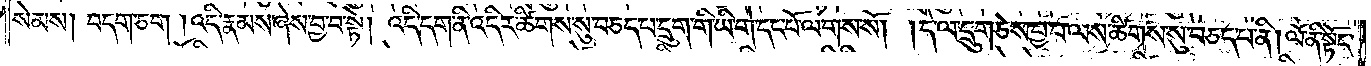སེམས། བདག་ཅག །འདི་རྣམས་ཞེས་བྱ་བ་སྟེ། འདི་དག་ནི་འདིར་ཚིགས་སུ་བཅད་པ་དྲུག་གི་ཡི་གེ་དང་པོ་ལགས་སོ། །དེ་ལ་དྲུག་ཅེས་བྱ་བ་ལས་ཚིགས་སུ་བཅད་པ་ནི། ལོ་ནི་སྟོང་
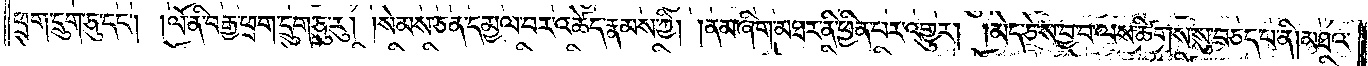ཕྲག་དྲུག་ཅུ་དང༌། །ལོ་ནི་བརྒྱ་ཕྲག་དྲུག་ཅུ་རུ། །སེམས་ཅན་དམྱལ་བར་འཚེད་རྣམས་ཀྱི། །ནམ་ཞིག་མཐར་ནི་ཕྱིན་པར་འགྱུར། །མེད་ཅེས་བྱ་བ་ལས་ཚིགས་སུ་བཅད་པ་ནི། མཐའ་
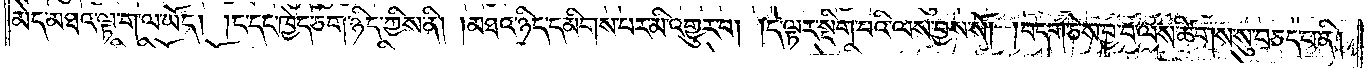མེད་མཐའ་ལྟ་ག་ལ་ཡོད། །ང་དང་ཁྱེད་ཅག་ཉིད་ཀྱིས་ནི། །མཐའ་ཉིད་དམིགས་པར་མི་འགྱུར་བ། །དེ་ལྟར་སྡིག་པའི་ལས་བྱས་སོ། །བདག་ཅེས་བྱ་བ་ལས་ཚིགས་སུ་བཅད་པ་ནི།
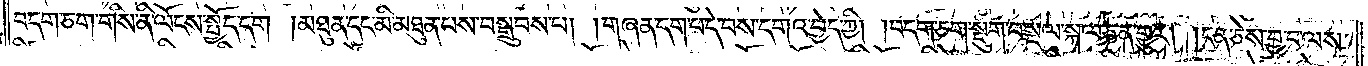བདག་ཅག་གིས་ནི་ལོངས་སྤྱོད་དག །མཐུན་དང་མི་མཐུན་པས་བསྒྲུབས་པ། །གཞན་དག་པ་དེ་བས་དགའ་བྱེད་ཀྱི། །བདག་ཅག་སྡུག་བསྔལ་སྐལ་ཅན་གྱུར། །ངན་ཅེས་བྱ་བ་ལས་
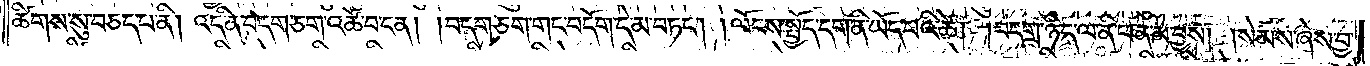ཚིགས་སུ་བཅད་པ་ནི། འདི་ན་བདག་ཅག་འཚོ་བ་ངན། །བདག་ཅག་གང་བདོག་དེ་མ་བཏང༌། །ལོངས་སྤྱོད་དག་ནི་ཡོད་པའི་ཚེ། །བདག་ཉིད་ལ་ནི་ཕན་མ་བྱས། །སེམས་ཞེས་བྱ་
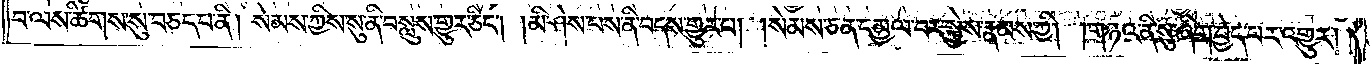བ་ལས་ཚིགས་སུ་བཅད་པ་ནི། སེམས་ཀྱིས་སུ་ནི་བསླུས་གྱུར་ཅིང༌། །མི་ཤེས་པས་ནི་བདས་གྱུར་པ། །སེམས་ཅན་དམྱལ་བར་སྐྱེས་རྣམས་ཀྱི། །གཉའ་ནི་སུ་ཞིག་བྱེད་པར་འགྱུར། །
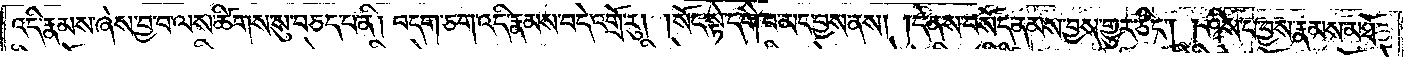འདི་རྣམས་ཞེས་བྱ་བ་ལས་ཚིགས་སུ་བཅད་པ་ནི། བདག་ཅག་འདི་རྣམས་བདེ་འགྲོ་རུ། །སོང་སྟེ་དགེ་བ་མང་བྱས་ནས། །དེ་ནས་བསོད་ནམས་བྱས་གྱུར་ཅིང༌། །ཤིས་པ་བྱས་རྣམས་མཐོ་
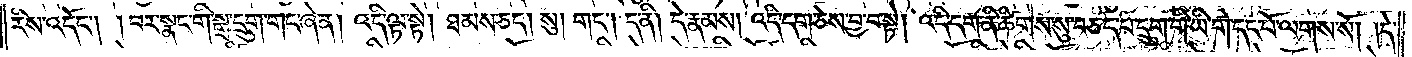རིས་འདོང༌། །བར་སྣང་གི་སྒྲ་དྲུག་གང་ཞེ་ན། འདི་ལྟ་སྟེ། ཐམས་ཅད། སུ། གང༌། ད་ནི། དེ་རྣམས། འདི་དག་ཅེས་བྱ་བ་སྟེ། འདི་དག་ནི་ཚིགས་སུ་བཅད་པ་དྲུག་གི་ཡི་གེ་དང་པོ་ལགས་སོ། །དེ་
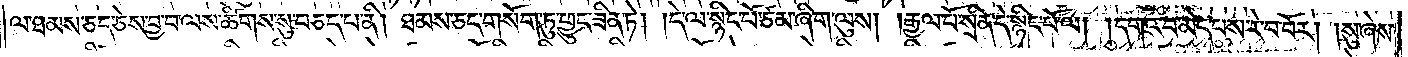ལ་ཐམས་ཅད་ཅེས་བྱ་བ་ལས་ཚིགས་སུ་བཅད་པ་ནི། ཐམས་ཅད་གསོག་ཏུ་ཕྱུང་ཟིན་ཏེ། །དེ་ལ་སྙིང་པོ་ཙམ་ཞིག་ལུས། །རྒྱལ་པོ་སྲིན་དེ་སྙིང་པོ་ལ། །དགའ་བ་མེད་པས་རེ་བ་བོར། །སུ་ཞེས་
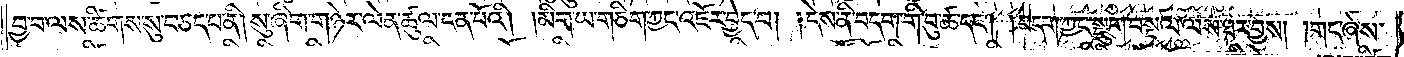བྱ་བ་ལས་ཚིགས་སུ་བཅད་པ་ནི། སུ་ཞིག་གཉེར་ལེན་ཚུལ་ངན་པོའི། །མིག་ཡ་གཅིག་ཀྱང་འཇོར་བྱེད་པ། །དེས་ནི་བདག་གི་བུ་ཚ་དང༌། །བདག་ཀྱང་སྡུག་བསྔལ་ལས་ཐར་བྱས། །གང་ཞེས་
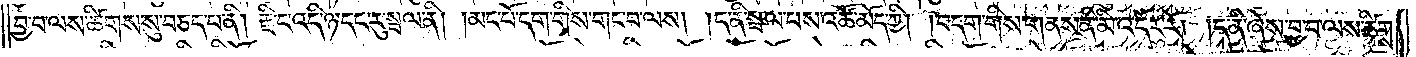བྱ་བ་ལས་ཚིགས་སུ་བཅད་པ་ནི། རྫིང་འདི་ཉ་དང་རུ་སྦལ་ནི། །མང་པོ་དག་གིས་གང་བ་ལས། །ད་ནི་སྦལ་པས་འཚོ་མོད་ཀྱི། །བདག་གིས་གནས་ནི་མི་འདོར་རོ། །ད་ནི་ཞེས་བྱ་བ་ལས་ཚིགས་
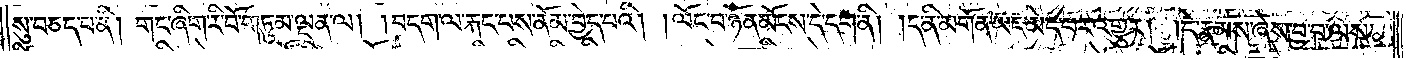སུ་བཅད་པ་ནི། གང་ཞིག་རི་བོ་གཏུམ་ལྡན་ལ། །བདག་ལ་རྐང་པས་ནོམ་བྱེད་པའི། །ལོང་བ་ཉོན་མོངས་དེ་དག་ནི། །ད་ནི་མགོན་ཡང་མེད་པར་འགྱུར། །དེ་རྣམས་ཞེས་བྱ་བ་ལས་
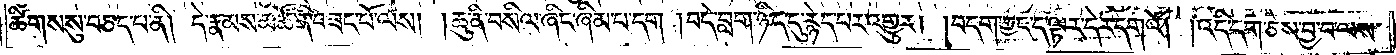ཚིགས་སུ་བཅད་པ་ནི། དེ་རྣམས་མཚོ་ནི་བཟང་པོ་ལས། །ཆུ་ནི་བསིལ་ཞིང་ཞིམ་པ་དག །བདེ་བླག་ཉིད་དུ་རྙེད་པར་འགྱུར། །བདག་ཀྱང་ད་ལྟར་དེར་དགའོ། །འདི་དག་ཅེས་བྱ་བ་ལས་
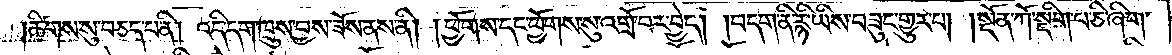ཚིགས་སུ་བཅད་པ་ནི། འདི་དག་ཁྲུས་བྱས་ཟོས་ནས་ནི། །ཕྱོགས་དང་ཕྱོགས་སུ་འགྲོ་བར་བྱེད། །བདག་ནི་རྙི་ཡིས་བཟུང་གྱུར་པ། །སྔོན་ཀོ་སྡིག་པ་ཅི་ཞིག་
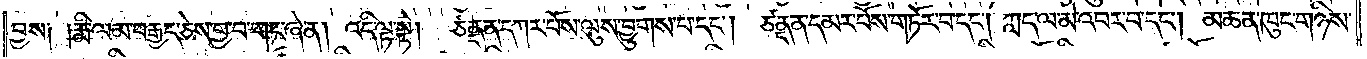བྱས༑ །རྨི་ལམ་བརྒྱད་ཅེས་བྱ་བ་གང་ཞེ་ན། འདི་ལྟ་སྟེ། ཙནྡན་དཀར་པོས་ལུས་བྱུགས་པ་དང༌། ཙནྡན་དམར་པོས་གཏོར་བ་དང༌། ཀླད་ལ་མེ་འབར་བ་དང༌། མཆན་ཁུང་གཉིས་
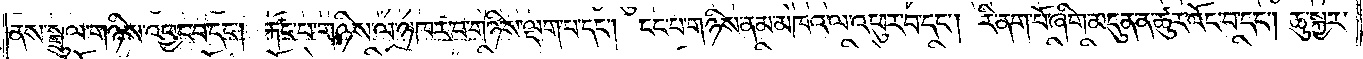ནས་སྦྲུལ་གཉིས་འཕྱང་བ་དང༌། རྐང་པ་གཉིས་ལ་ཉ་ཁར་བ་གཉིས་ལྡག་པ་དང༌། ངང་པ་གཉིས་ནམ་མཁའ་ལ་འཕུར་བ་དང༌། རི་ནག་པོ་ཞིག་མདུན་ན་ཚུར་འོང་བ་དང༌། ཆུ་སྐྱར་
